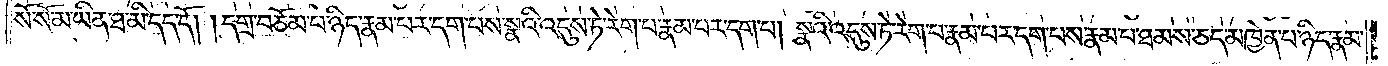སོ་སོ་མ་ཡིན་ཐ་མི་དད་དོ། །དགྲ་བཅོམ་པ་ཉིད་རྣམ་པར་དག་པས་སྣའི་འདུས་ཏེ་རེག་པ་རྣམ་པར་དག་པ། སྣའི་འདུས་ཏེ་རེག་པ་རྣམ་པར་དག་པས་རྣམ་པ་ཐམས་ཅད་མཁྱེན་པ་ཉིད་རྣམ་
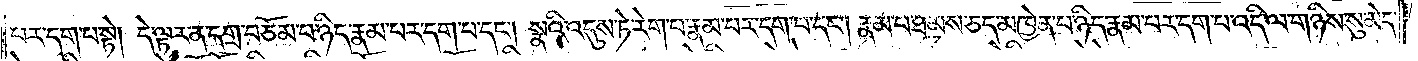པར་དག་པ་སྟེ། དེ་ལྟར་ན་དགྲ་བཅོམ་པ་ཉིད་རྣམ་པར་དག་པ་དང༌། སྣའི་འདུས་ཏེ་རེག་པ་རྣམ་པར་དག་པ་དང༌། རྣམ་པ་ཐམས་ཅད་མཁྱེན་པ་ཉིད་རྣམ་པར་དག་པ་འདི་ལ་གཉིས་སུ་མེད་
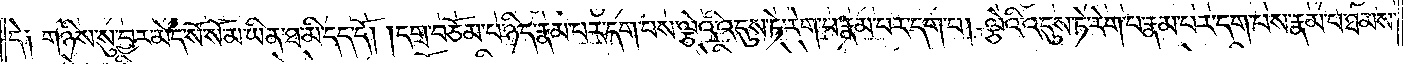དེ༑ གཉིས་སུ་བྱར་མེད་སོ་སོ་མ་ཡིན་ཐ་མི་དད་དོ། །དགྲ་བཅོམ་པ་ཉིད་རྣམ་པར་དག་པས་ལྕེའི་འདུས་ཏེ་རེག་པ་རྣམ་པར་དག་པ། ལྕེའི་འདུས་ཏེ་རེག་པ་རྣམ་པར་དག་པས་རྣམ་པ་ཐམས་
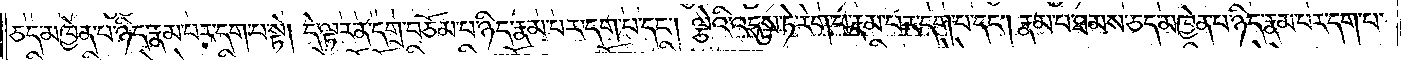ཅད་མཁྱེན་པ་ཉིད་རྣམ་པར་དག་པ་སྟེ། དེ་ལྟར་ན་དགྲ་བཅོམ་པ་ཉིད་རྣམ་པར་དག་པ་དང༌། ལྕེའི་འདུས་ཏེ་རེག་པ་རྣམ་པར་དག་པ་དང༌། རྣམ་པ་ཐམས་ཅད་མཁྱེན་པ་ཉིད་རྣམ་པར་དག་པ་
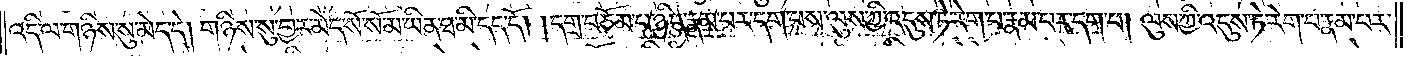འདི་ལ་གཉིས་སུ་མེད་དེ། གཉིས་སུ་བྱར་མེད་སོ་སོ་མ་ཡིན་ཐ་མི་དད་དོ། །དགྲ་བཅོམ་པ་ཉིད་རྣམ་པར་དག་པས་ལུས་ཀྱི་འདུས་ཏེ་རེག་པ་རྣམ་པར་དག་པ། ལུས་ཀྱི་འདུས་ཏེ་རེག་པ་རྣམ་པར་
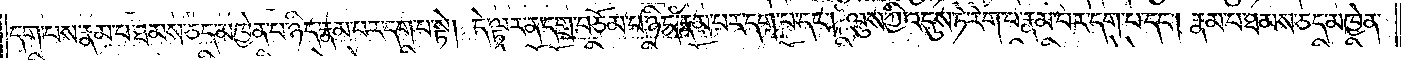དག་པས་རྣམ་པ་ཐམས་ཅད་མཁྱེན་པ་ཉིད་རྣམ་པར་དག་པ་སྟེ། དེ་ལྟར་ན་དགྲ་བཅོམ་པ་ཉིད་རྣམ་པར་དག་པ་དང༌། ལུས་ཀྱི་འདུས་ཏེ་རེག་པ་རྣམ་པར་དག་པ་དང༌། རྣམ་པ་ཐམས་ཅད་མཁྱེན་
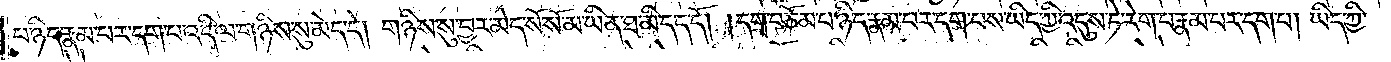པ་ཉིད་རྣམ་པར་དག་པ་འདི་ལ་གཉིས་སུ་མེད་དེ། གཉིས་སུ་བྱར་མེད་སོ་སོ་མ་ཡིན་ཐ་མི་དད་དོ། །དགྲ་བཅོམ་པ་ཉིད་རྣམ་པར་དག་པས་ཡིད་ཀྱི་འདུས་ཏེ་རེག་པ་རྣམ་པར་དག་པ། ཡིད་ཀྱི་
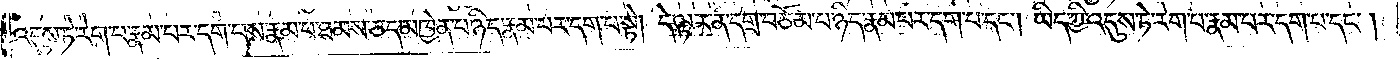འདུས་ཏེ་རེག་པ་རྣམ་པར་དག་པས་རྣམ་པ་ཐམས་ཅད་མཁྱེན་པ་ཉིད་རྣམ་པར་དག་པ་སྟེ། དེ་ལྟར་ན་དགྲ་བཅོམ་པ་ཉིད་རྣམ་པར་དག་པ་དང༌། ཡིད་ཀྱི་འདུས་ཏེ་རེག་པ་རྣམ་པར་དག་པ་དང༌།
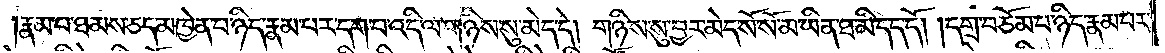རྣམ་པ་ཐམས་ཅད་མཁྱེན་པ་ཉིད་རྣམ་པར་དག་པ་འདི་ལ་གཉིས་སུ་མེད་དེ། གཉིས་སུ་བྱར་མེད་སོ་སོ་མ་ཡིན་ཐ་མི་དད་དོ། །དགྲ་བཅོམ་པ་ཉིད་རྣམ་པར་
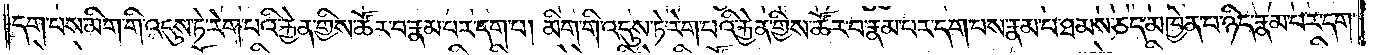དག་པས་མིག་གི་འདུས་ཏེ་རེག་པའི་རྐྱེན་གྱིས་ཚོར་བ་རྣམ་པར་དག་པ། མིག་གི་འདུས་ཏེ་རེག་པའི་རྐྱེན་གྱིས་ཚོར་བ་རྣམ་པར་དག་པས་རྣམ་པ་ཐམས་ཅད་མཁྱེན་པ་ཉིད་རྣམ་པར་དག་
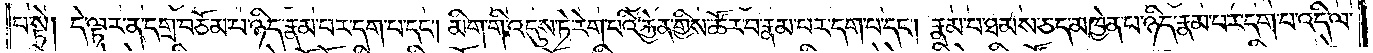པ་སྟེ། དེ་ལྟར་ན་དགྲ་བཅོམ་པ་ཉིད་རྣམ་པར་དག་པ་དང༌། མིག་གི་འདུས་ཏེ་རེག་པའི་རྐྱེན་གྱིས་ཚོར་བ་རྣམ་པར་དག་པ་དང༌། རྣམ་པ་ཐམས་ཅད་མཁྱེན་པ་ཉིད་རྣམ་པར་དག་པ་འདི་ལ་
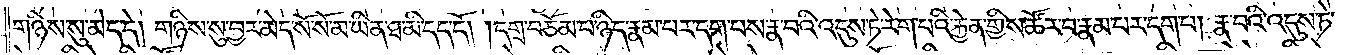གཉིས་སུ་མེད་དེ། གཉིས་སུ་བྱར་མེད་སོ་སོ་མ་ཡིན་ཐ་མི་དད་དོ། །དགྲ་བཅོམ་པ་ཉིད་རྣམ་པར་དག་པས་རྣ་བའི་འདུས་ཏེ་རེག་པའི་རྐྱེན་གྱིས་ཚོར་བ་རྣམ་པར་དག་པ། རྣ་བའི་འདུས་ཏེ་
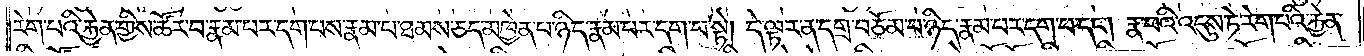རེག་པའི་རྐྱེན་གྱིས་ཚོར་བ་རྣམ་པར་དག་པས་རྣམ་པ་ཐམས་ཅད་མཁྱེན་པ་ཉིད་རྣམ་པར་དག་པ་སྟེ། དེ་ལྟར་ན་དགྲ་བཅོམ་པ་ཉིད་རྣམ་པར་དག་པ་དང༌། རྣ་བའི་འདུས་ཏེ་རེག་པའི་རྐྱེན་
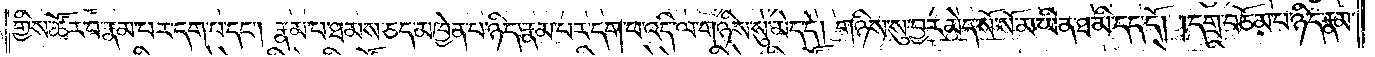གྱིས་ཚོར་བ་རྣམ་པར་དག་པ་དང༌། རྣམ་པ་ཐམས་ཅད་མཁྱེན་པ་ཉིད་རྣམ་པར་དག་པ་འདི་ལ་གཉིས་སུ་མེད་དེ། གཉིས་སུ་བྱར་མེད་སོ་སོ་མ་ཡིན་ཐ་མི་དད་དོ། །དགྲ་བཅོམ་པ་ཉིད་རྣམ་
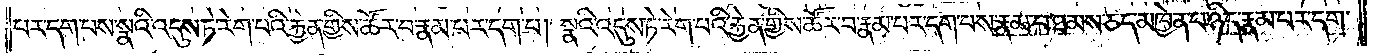པར་དག་པས་སྣའི་འདུས་ཏེ་རེག་པའི་རྐྱེན་གྱིས་ཚོར་བ་རྣམ་པར་དག་པ། སྣའི་འདུས་ཏེ་རེག་པའི་རྐྱེན་གྱིས་ཚོར་བ་རྣམ་པར་དག་པས་རྣམ་པ་ཐམས་ཅད་མཁྱེན་པ་ཉིད་རྣམ་པར་དག་
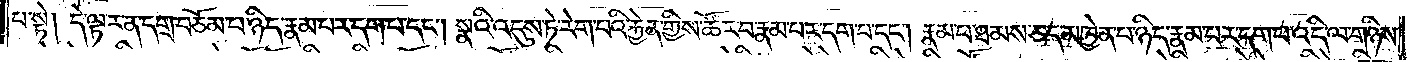པ་སྟེ། དེ་ལྟར་ན་དགྲ་བཅོམ་པ་ཉིད་རྣམ་པར་དག་པ་དང༌། སྣའི་འདུས་ཏེ་རེག་པའི་རྐྱེན་གྱིས་ཚོར་བ་རྣམ་པར་དག་པ་དང༌། རྣམ་པ་ཐམས་ཅད་མཁྱེན་པ་ཉིད་རྣམ་པར་དག་པ་འདི་ལ་གཉིས་
